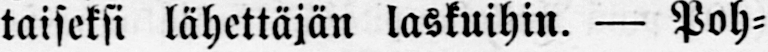taiseksi lähettäjän laskuihin. — Poh-
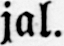jal.
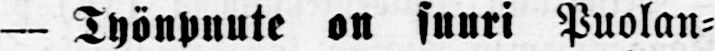— Työnpuute on suuri Puolan-
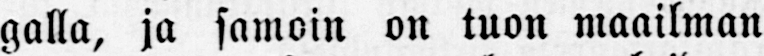galla, ja samoin on tuon maailman
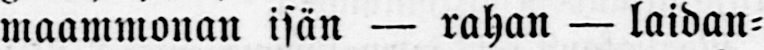maammonan isän — rahan — laidan-
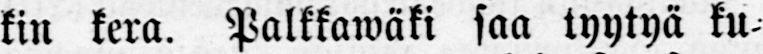kin kera. Palkkawäki saa tyytyä ku-
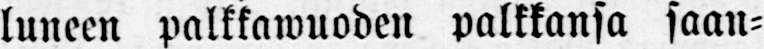luneen palkkawuoden palkkansa saan-
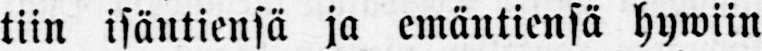tiin isäntiensä ja emäntiensä hywiin
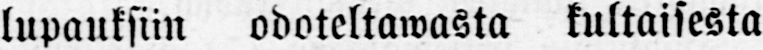lupauksiin odoteltawasta kultaisesta
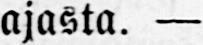ajasta. — Louhi.
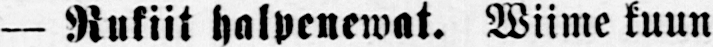— Rukiit halpenewat. Wiime kuun
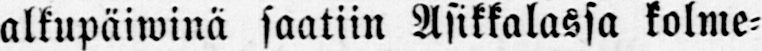alkupäiwinä saatiin Asikkalassa kolme-
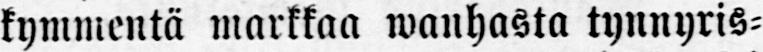kymmentä markkaa wanhasta tynnyris-
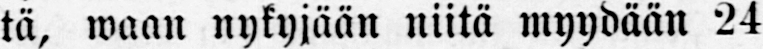tä, waan nykyjään niitä myydään 24
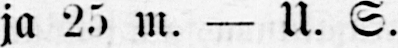ja 25 m. — U. S.
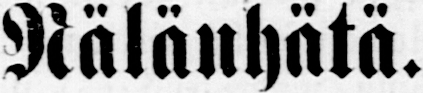Nälänhätä.
